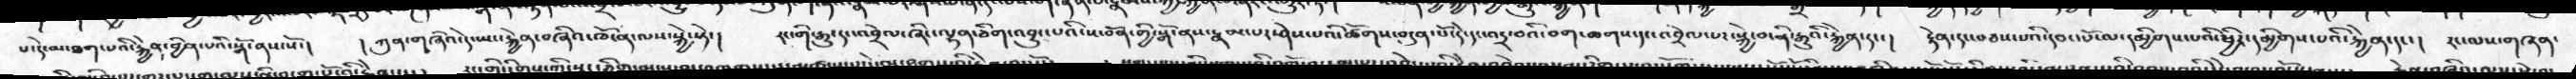པ་དེ་མ་ཐག་པའི་རྐྱེན་བྱིན་པའི་སྒོ་ནས་སོ་།   །ཀུན་གཞིའ་དེ་ཡང་རྐྱེན་བཞིའ་ཁོ་ན་ལས་སྐྱེ་སྟེ་།   རང་གི་རྒྱུ་དང་འབྲེལ་ཞིང་ལྷན་ཅིག་འབྱུང་པའི་ས་བོན་གྱི་སྒོ་ནས་རྣམ་པར་ཤེས་པའི་ཚོགས་བདུན་པོ་དེ་དང་འདྲ་བའི་བག་ཆགས་དང་འབྲེལ་པར་སྐྱེ་བ་ནི་རྒྱུའི་རྐྱེན་དང་།  རྟེན་དང་བཅས་པའི་དབང་པོ་ལ་དམྱིགས་པའི་ཕྱིར་དམྱིགས་པའི་རྐྱེན་དང་།  རང་ལས་གཞན་
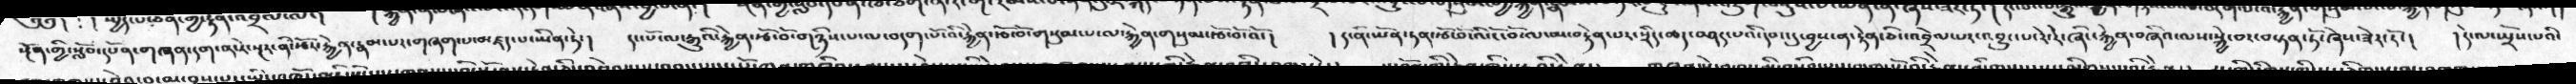སྔོན་གྱི་སློབ་དཔོན་གཞན་དག་ན་རེ་སྔར་ནི་རྩོར་རྐྱེན་རྣམ་པར་གཞག་པ་མཛད་པ་ཡིན་ཏེ་།  དང་པོ་ལ་རྒྱུའི་རྐྱེན་རྩོ་བོ་གཉིས་པ་ལ་བདག་པོ་འིི་རྐྱེན་རྩོ་བོ་གསུམ་པ་ལ་རྐྱེན་གསུམ་རྩོ་བོ་འོ་།  །ད་ནི་ཡོན་ཏན་རྩོ་བོ་འི་ངོ་བོ་ལ་མ་རྟེན་པར་སྲིད་ཆད་བཤད་པའི་དབང་དུ་བྱས་ན་རྟེན་ཅིང་འབྲེལ་པར་འབྱུང་པ་རེ་རེ་ཞིང་རྐྱེན་བཞིའ་ལས་སྐྱེ་བར་བསྟན་ཏོ་ཞེས་ཟེར་རོ་།  །དེ་ལ་སྤྲོས་པའི་
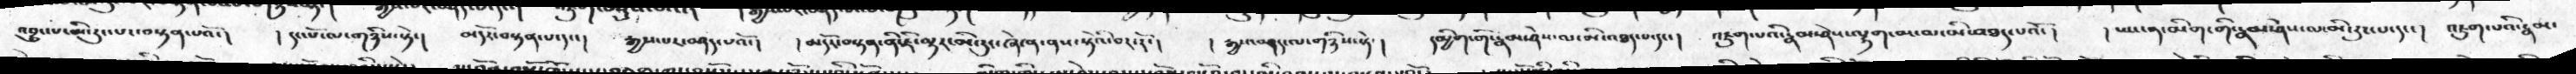འབྱུང་པ་མི་རུང་པར་བསྟན་པའོ་།  །དང་པོ་ལ་གཉིས་སྟེ་།  མདོར་བསྟན་པ་དང་།  རྒྱས་པར་བཤད་པའོ་།  །མདོར་བསྟན་ནི་ཇི་ལྟར་མི་རུང་ཞེ་ན་ནས་སྟེའི་བར་རོ་།  །རྒྱས་བཤད་ལ་གཉིས་སྟེ་།  དམྱིག་གི་རྣམ་ཤེས་ལ་མི་འཐད་པ་དང་།  འཇུག་པའི་རྣམ་ཤེས་ལྷག་མ་མ་མི་འཐད་པའོ་།  །ཡང་ན་མིག་གི་རྣམ་ཤེས་ལ་མི་རུང་པ་དང་།  འཇུག་པའི་རྣམ་
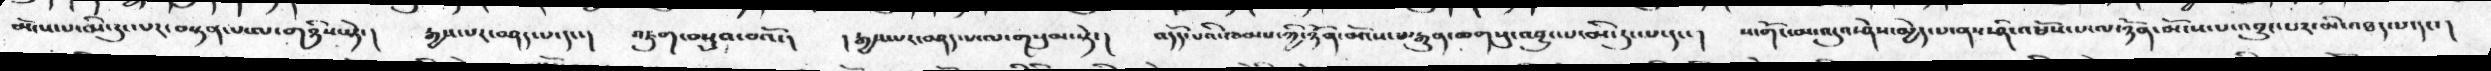མོངས་པ་མི་རུང་པར་བསྟན་པ་ལ་གཉིས་སྟེ་།  རྒྱས་པར་བཤད་པ་དང་།  འཇུག་བསྡུའ་བའོ་།  །རྒྱས་པར་བཤད་པ་ལ་གསུམ་སྟེ་།  འདོད་པའི་ཁམས་ཀྱི་ཉོན་མོངས་པ་རྒྱུན་ཆགསུ་འབྱུང་པ་མི་རུང་པ་དང་།  ས་གོང་མ་འདུའ་ཤེས་མྱེད་པ་ནས་ཤི་འཕོས་པ་ལ་ཉོན་མོངས་པ་འབྱུང་པར་མི་འཐད་པ་དང་།
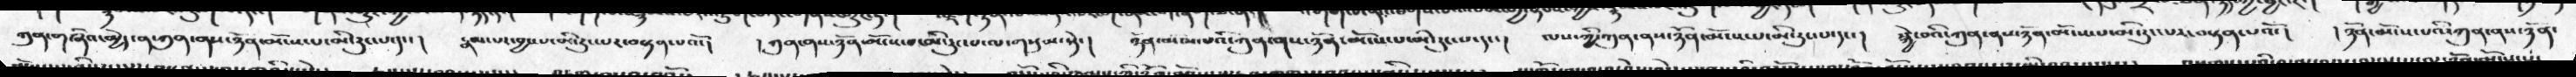ཀུན་གཞིའ་མྱེད་ན་ཀུན་ནས་ཉོན་མོངས་པ་མི་རུང་པ་དང་།   རྣམ་པར་བྱས་པ་མི་རུང་པར་བསྟན་པའོ་།  །ཀུན་ནས་ཉོན་མོངས་པ་མི་རུང་པ་ལ་གསུམ་སྟེ་།  ཉོན་མོངས་པའི་ཀུན་ནས་ཉོན་མོངས་པ་མི་རུང་པ་དང་།   ལས་ཀྱི་ཀུན་ནས་ཉོན་མོངས་པ་མི་རུང་པ་དང་།  སྐྱེ་བའི་ཀུན་ནས་ཉོན་མོངས་པ་མི་རུང་པར་བསྟན་པའོ་།   །ཉོན་མོངས་པའི་ཀུན་ནས་ཉོན་
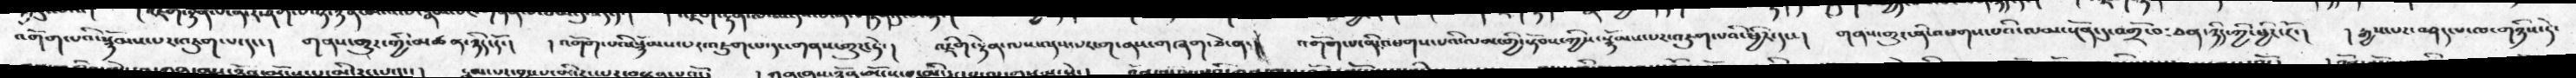འགོག་པའི་སྙོམས་པར་འཇུག་པ་དང་།   གནས་གྱུར་གྱི་མཚན་ཉིད་དོ་།  །འགོག་པའི་སྙོམས་པར་འཇུག་པ་དང་གནས་འགྱུར་ཏེ་།  འཇིག་རྟེན་ལས་འདས་པར་ག་ནས་གཞག་ཅེ་ན་།  འགོག་པ་ནི་འཕགས་པའི་ལམ་གྱི་སྟོབས་ཀྱིས་སྙོམས་པར་འཇུག་པའི་ཕྱིར་དང་།  གནས་གྱུར་ནི་འཕགས་པའི་ལམ་སྔོན་དུ་འགྲོ་བ་ཅན་ཉིད་ཀྱི་ཕྱིར་རོ་།  །རྒྱས་པར་བཤད་པ་ལ་གཉིས་ཏེ་
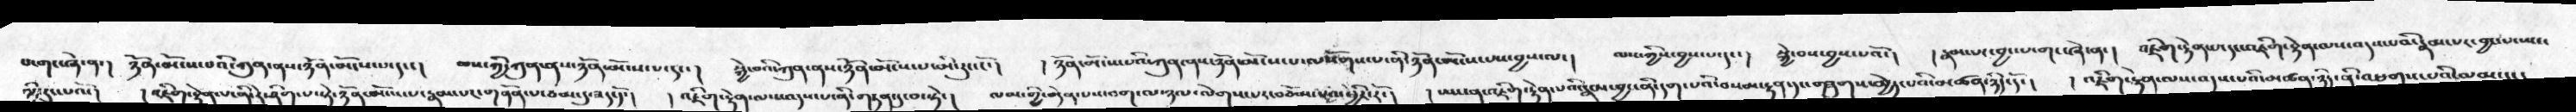པ་གང་ཞེ་ན་།  ཉོན་མོངས་པའི་ཀུན་ནས་ཉོན་མོངས་པ་དང་།  ལས་ཀྱི་ཀུན་ནས་ཉོན་མོངས་པ་དང་།  སྐྱེ་བའི་ཀུན་ནས་ཉོན་མོངས་པ་མི་རུང་ངོ་།   །ཉོན་མོངས་པའི་ཀུན་ནས་ཉོན་མོངས་པ་ལསོགས་པ་ནི་ཉོན་མོངས་པས་བྱས་ལ་།  ལས་ཀྱིས་བྱས་པ་དང་།  སྐྱེ་བས་བྱས་པའོ་།  །རྣམ་པར་བྱང་པ་གང་ཞེ་ན་།  འཇིག་རྟེན་པ་དང་འཇིག་རྟེན་ལས་འདས་པའི་རྣམ་པར་བྱང་པ་ཡང་
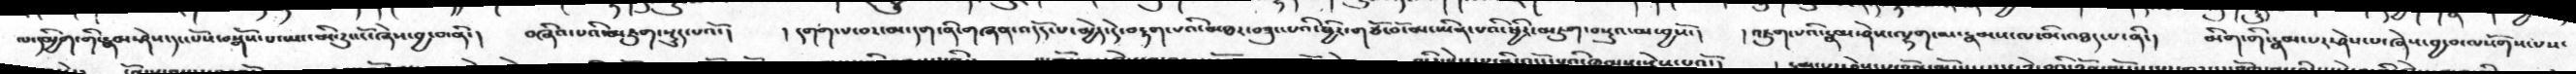ལ་དམྱིག་གི་རྣམ་ཤེས་དང་པོས་བསྒོས་པ་ཡང་མི་རུང་ངོ་ཞེས་བྱ་བ་ནི་།  བཞིའ་པའི་མཇུག་སྡུད་པའོ་།  །དགག་པ་བར་མ་དག་ནི་གཞན་འདོད་པ་མྱེད་དེ་བརྟག་པའི་མཐར་བཟུང་པའི་ཕྱིར་གཙོ་བོ་མ་ཡིན་པའི་ཕྱིར་མཇུག་བསྡུའ་མ་བྱསོ་།  །འཇུག་པའི་རྣམ་ཤེས་ལྷག་མ་རྣམས་ལ་མི་འཐད་པ་ནི་།  མིག་གི་རྣམ་པར་ཤེས་པ་ཞེས་བྱ་བ་ལསོགས་པས་
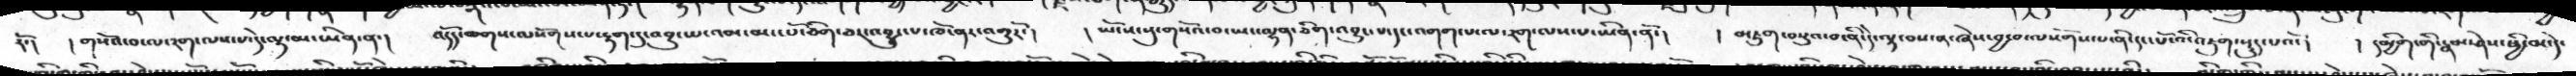ཏོ་།   །གསོའ་བ་ལ་རག་ལས་པ་དེ་ལྟ་མ་ཡིན་ན་།   འདོད་ཆགས་ལསོགས་པ་རྟག་དུ་འབྱུང་པ་འམ་མང་པོ་ཅིག་ཅར་འབྱུང་པ་ཁོ་ནར་འགྱུརོ་།  །ཡོངས་སུ་གསོའ་བ་ཡང་ལྷན་ཅིག་འབྱུང་པ་དང་འགག་པ་ལ་རག་ལས་པ་ཡིན་ནོ་།   །མཇུག་བསྡུའ་བ་ནི་དེ་ལྟ་བས་ན་ཞེས་བྱ་བ་ལསོགས་པ་ནི་དང་པོ་འི་འཇུག་སྡུད་པའོ་།   །དམྱིག་གི་རྣམ་ཤེས་ཕྱི་མ་དེ་
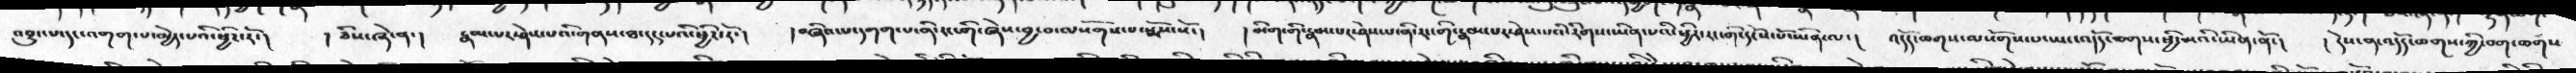འབྱུང་པ་དང་འགག་པ་མྱེད་པའི་ཕྱིར་རོ་།  །ཅིས་ཞེ་ན་།   རྣམ་པར་ཤེས་པའི་གནས་ཐ་དད་པའི་ཕྱིར་རོ་།  །བཞིའ་པ་དགག་པ་ནི་རང་གི་ཞེས་བྱ་བ་ལསོགས་པ་སྨོས་སོ་།  །མིག་གི་རྣམཔར་ཤེས་པ་ནི་རང་གི་རྣམ་པར་ཤེས་པའི་རིགས་ཡིན་པའི་ཕྱིར་རང་གི་དངོས་པོ་ཡིན་ལ་།  འདོད་ཆགས་ལསོགས་པ་ཡང་འདོད་ཆགས་ཕྱི་མའི་ཡིན་ནོ་།  །དེས་ན་འདོད་ཆགས་ཀྱི་བག་ཆགས་
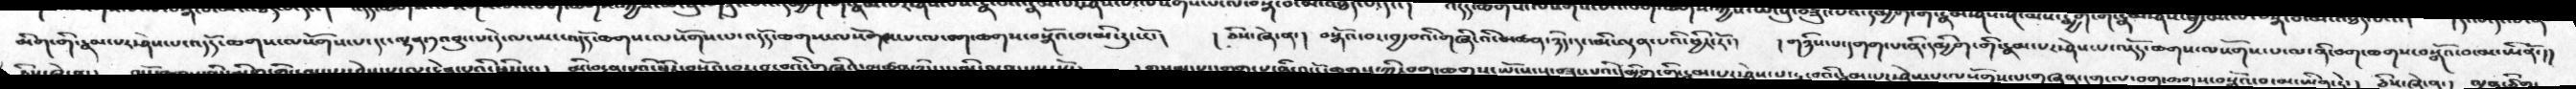མིག་གི་རྣམ་པར་ཤེས་པ་འདོད་ཆགས་ལསོགས་པ་དང་ལྷན་༡་འབྱུང་པ་དེ་ལ་ཡང་འདོད་ཆགས་ལསོགས་པ་འདོད་ཆགས་ལསོགས་པ་ལ་བག་ཆགས་བསྒོའ་བ་མི་རུང་ངོ་།  །ཅེས་ཞེ་ན་།   བསྒོའ་པར་བྱ་བའི་གཞི་འི་མཚན་ཉིད་དང་མི་ལྡན་པའི་ཕྱིར་རོ་།  །གཉིས་པ་དགག་པ་ནི་དམྱིག་གི་རྣམ་པར་ཤེས་པ་འདོད་ཆགས་ལསོགས་པ་ལ་ནི་བག་ཆགས་བསྒོའ་བ་མ་ཡིནོ་།།
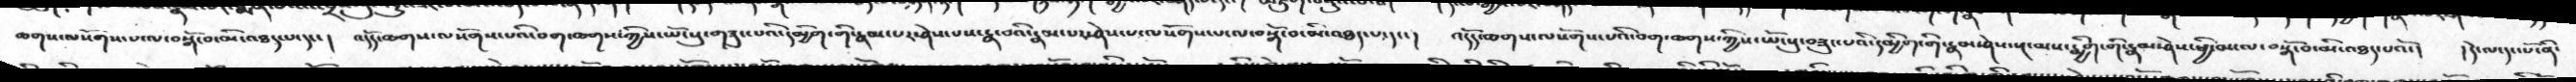ཆགས་ལསོགས་པ་ལ་བསྒོ་བ་མི་འཐད་པ་དང་།  འདོད་ཆགས་ལསོགས་པའི་བག་ཆགས་ཀྱིས་ཡོངསུ་གཟུང་པའི་དམྱིག་གི་རྣམ་པར་ཤེས་པས་རྣ་བའི་རྣམ་པར་ཤེས་པ་ལསོགས་པ་ལ་བསྒོ་བ་མི་འཐད་པ་དང་།  འདོད་ཆགས་ལསོགས་པའི་བག་ཆགས་ཀྱིས་ཡོངསུ་བཟུང་པའི་དམྱིག་གི་རྣམ་ཤེས་སྔ་མས་རྨྱིག་གི་རྣམ་ཤེས་ཕྱི་མ་ལ་བསྒོ་བ་མི་འཐད་པའོ་།  །དེ་ལ་དང་པོ་ནི་
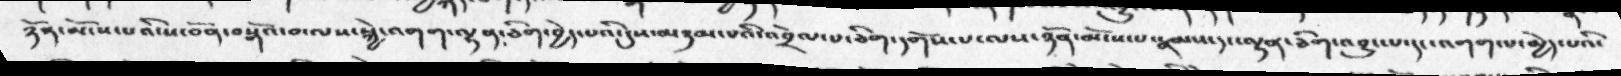ཉོན་མོངས་པའི་ས་བོན་བསྒོའ་བ་ལས་སྐྱེ་འགག་ལྷན་ཅིག་བྱེད་པའི་དུས་མཉམ་པའི་འབྲེལ་པ་ཅིག་དགོས་པ་ལས་ཉོན་མོངས་པ་རྣམས་དང་ལྷན་ཅིག་འབྱུང་པ་དང་འགག་པ་མྱེད་པའི་
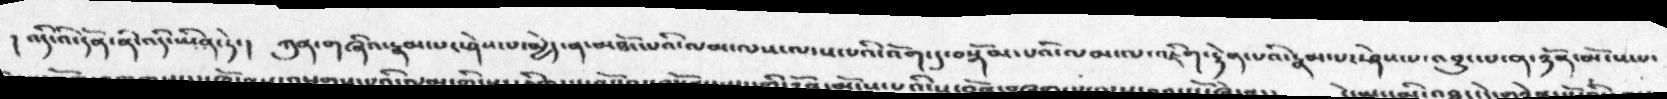། འདི་འི་དོན་ནི་འདི་ཡིན་ཏེ་།   ཀུན་གཞིའ་རྣམ་པར་ཤེས་པ་མྱེད་ན་མཐོང་པའི་ལམ་ལས་ལངས་པའི་འོག་དུ་བསྒོམ་པའི་ལམ་ལ་འཇིག་རྟེན་པའི་རྣམ་པར་ཤེས་པ་འབྱུང་པ་ན་ཉོན་མོངས་པ་
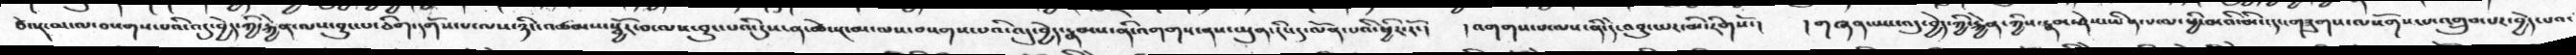ཙེ་སྔ་མ་ལ་བསགས་པའི་འདུ་བྱེད་ཀྱི་རྐྱེན་ལས་བྱུང་པ་ཅིག་དགོས་པ་ལས་ཉིང་འཚམས་སྦྱོར་བ་ལས་བྱུང་པའི་དུས་ན་ཚེ་སྔ་མ་ལས་བསགས་པའི་འདུ་བྱེད་རྣམས་ནི་འགགས་ནས་ཡིན་རིང་དུ་ལོན་པའི་ཕྱིར་རོ་།   འགགས་པ་ལས་ནི་དེ་འབྱུང་པར་མི་རིགསོ་།   །གཞན་ཡང་འདུ་བྱེད་ཀྱི་རྐྱེན་ཀྱིས་རྣམ་ཤེས་ཡིན་པ་ལ་ཕྱི་མའི་མིང་དང་གཟུགས་ལསོགས་པ་འགྲུབ་པར་བྱེད་པའ་
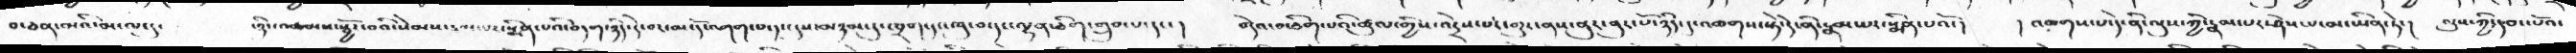བ་ཅན་མའི་མངལ་དུ་  ་ཉིང་འཚམས་སྦྱོར་བའི་སེམས་རྣམ་པར་སྨིན་པའི་བདག་ཉིད་དེ་བར་མ་དོ་འགག་པ་དང་དུས་མཉམ་དུ་ཁྲག་དང་ཁུ་བ་དང་ལྷན་ཅིག་གྲུབ་པ་དང་།   བདེའ་བ་ཅིག་པའི་ཚུལ་གྱིས་འདྲེས་པར་གྱུར་ནས་ནུར་ནུར་པོ་ཉིད་དུ་འཆགས་སྟེ་དེ་ནི་རྣམ་པར་སྨིན་པའོ་།   །འཆགས་པ་དེ་ནི་ལུས་ཀྱི་རྣམ་པར་ཤེས་པ་མ་ཡིན་ཏེ་།   ལུས་ཀྱི་དབང་པོའ་
